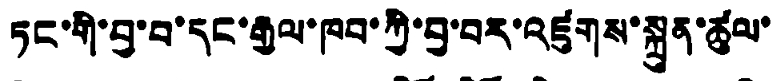ཏང་གི་བྱ་བ་དང་རྒྱལ་ཁབ་ཀྱི་བྱ་བར་འཛུགས་སྐྲུན་ཚུལ་
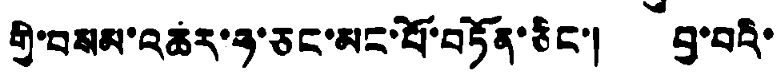གྱི་བསམ་འཆར་ཧ་ཅང་མང་པོ་བཏོན་ཅིང་། བྱ་བའི་
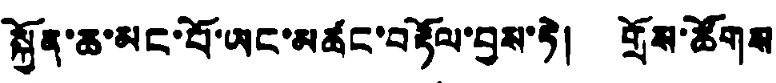སྐྱོན་ཆ་མང་པོ་ཡང་མཚང་བརྟོལ་བྱས་ཏེ། གྲོས་ཚོགས
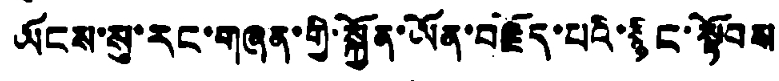ཡོངས་སུ་རང་གཞན་གྱི་སྐྱོན་ཡོན་བརྗོད་པའི་སྙིང་སྟོབས
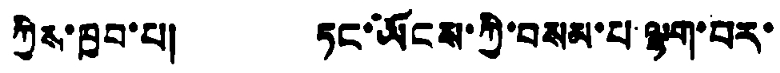ཀྱིས་ཁྱབ་པ། ཏང་ཡོངས་ཀྱི་བསམ་པ་ལྷག་པར་
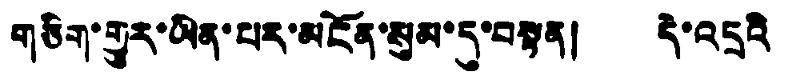གཅིག་གྱུར་ཡིན་པར་མངོན་སུམ་དུ་བསྟན། དེ་འདྲའི
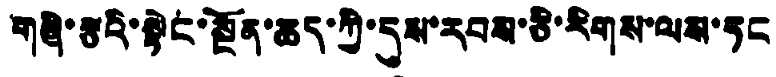གཞི་རྩའི་སྟེང་སྔོན་ཆད་ཀྱི་དུས་རབས་ཅི་རིགས་ལས་ཏང
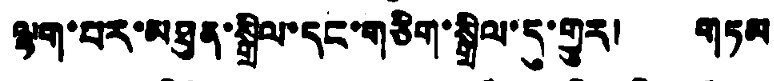ལྷག་པར་མཐུན་སྒྲིལ་དང་གཅིག་སྒྲིལ་དུ་གྱུར། གཏམ
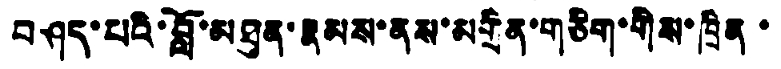བཤད་པའི་བློ་མཐུན་རྣམས་ནས་མགྲིན་གཅིག་གིས་ཁྲིན་
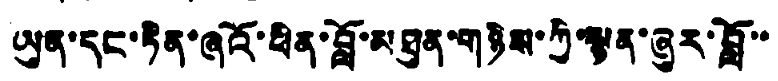ཡུན་དང་རྟིན་ཞའོ་ཕིན་བློ་མཐུན་གཉིས་ཀྱི་སྙན་ཞུར་བློ་་
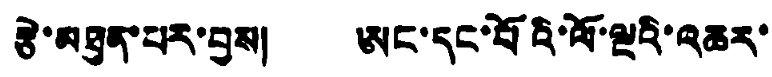རྩེ་མཐུན་པར་བྱས། ཨང་དང་པོའི་ལོ་ལྔའི་འཆར་
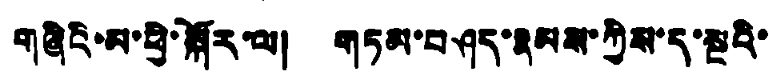གཞིའི་མ་ཕྱི་སྐོར་ལ། གཏམ་བཤད་རྣམས་ཀྱིས་ད་སྔའི་
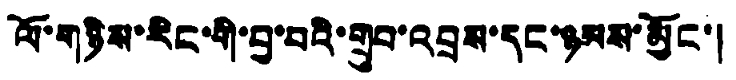ལོ་གཉིས་རིང་གི་བྱ་བའི་གྲུབ་འབྲས་དང་ཉམས་མྱོང་།
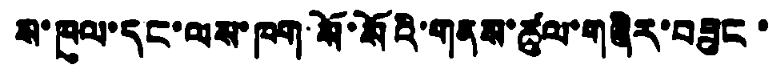ས་ཁུལ་དང་ལས་ཁག་སོ་སོའི་གནས་ཚུལ་གཞིར་བཟུང་
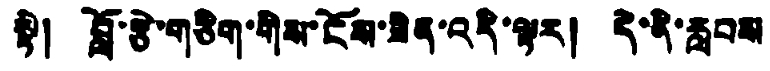སྟེ། བློ་རྩེ་གཅིག་གིས་ངོས་ཟིན་འདི་ལྟར། དེ་ནི་རླབས
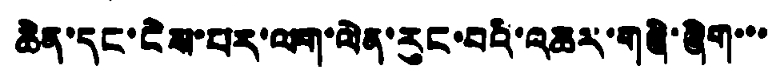ཆེན་དང་ངེས་པར་ལག་ལེན་རུང་བའི་འཆར་གཞི་ཞིག་་་
